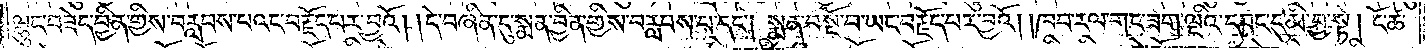ལྷུང་བཟེད་བྱིན་གྱིས་བརླབས་པའང་བརྗོད་པར་བྱའོ། །དེ་བཞིན་དུ་སྨན་བྱིན་གྱིས་བརླབས་པ་དང༌། སྨན་བསྔོ་བ་ཡང་བརྗོད་པར་བྱའོ། །ཁབ་རལ་གང་ཟག་ལྔའི་དབང་དུ་མི་བྱ་སྟེ། ངོ་ཚ་
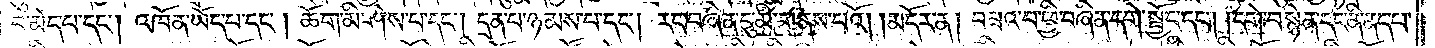བ་མེད་པ་དང༌། འཁོན་ཡོད་པ་དང༌། ཆོག་མི་ཤེས་པ་དང༌། དྲན་པ་ཉམས་པ་དང༌། རང་བཞིན་དུ་མི་གནས་པའོ། །མདོར་ན། བཟའ་བ་ཕྱི་བཞིན་དགེ་སྦྱོང་དང༌། །དགེ་བསྙེན་དང་ནི་ནད་པ་
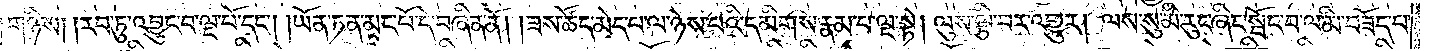གཉིས། །རབ་ཏུ་འབྱུང་བ་ལྔ་པོ་དང༌། །ཡོན་ཏན་མང་པོ་དེ་བཞིན་ནོ། །ཟས་ཚོད་མེད་པ་ལ་ཉེས་པའི་དམིགས་རྣམ་པ་ལྔ་སྟེ། ལུས་ལྕི་བར་འགྱུར། ལས་སུ་མི་རུང་ཞིང་སྤོང་བ་ལ་མི་བཟོད་པ་
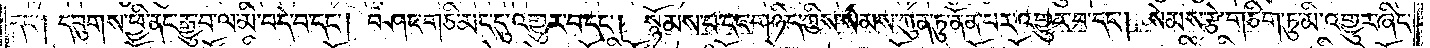དང༌། དབུགས་ཕྱི་ནང་རྒྱུ་བ་ལ་མི་བདེ་བ་དང༌། བཤང་གཅི་མང་དུ་འགྱུར་བ་དང༌། སྙོམས་པ་དང་གཉིད་ཀྱིས་སེམས་ཀུན་ཏུ་ནོན་པར་འགྱུར་བ་དང༌། སེམས་རྩེ་གཅིག་ཏུ་མི་འགྱུར་ཞིང་
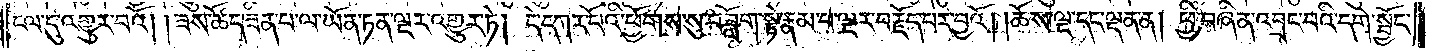ངལ་དུ་འགྱུར་བའོ། །ཟས་ཚོད་ཟིན་པ་ལ་ཡོན་ཏན་ལྔར་འགྱུར་ཏེ། དེ་དཀར་པོའི་ཕྱོགས་སུ་བཟློག་སྟེ་རྣམ་པ་ལྔར་བརྗོད་པར་བྱའོ། །ཆོས་ལྔ་དང་ལྡན་ན། ཕྱི་བཞིན་འབྲང་བའི་དགེ་སྦྱོང་
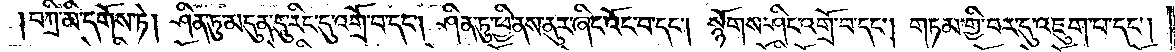བཀྲི་མི་དགོས་ཏེ། ཤིན་ཏུ་མདུན་དུ་རིང་དུ་འགྲོ་བ་དང༌། ཤིན་ཏུ་ཕྱི་ནས་ནུར་ཞིང་འོང་བ་དང༌། སྙོགས་ཤིང་འགྲོ་བ་དང༌། གཏམ་གྱི་བར་དུ་འཇུག་པ་དང༌།
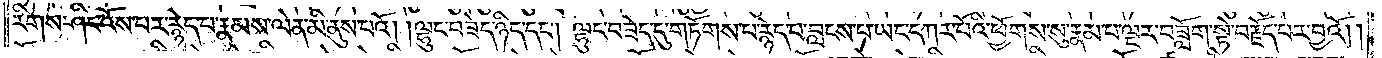རིགས་ཤིང་འོས་པར་རྙེད་པ་རྣམས་ལེན་མི་ནུས་པའོ། །ལྷུང་བཟེད་ཉིད་དང༌། ལྷུང་བཟེད་དུ་གཏོགས་པ་རྙེད་པ་བླངས་པ་ཡང་དཀར་པོའི་ཕྱོགས་སུ་རྣམ་པ་ལྔར་བཟློག་སྟེ་བརྗོད་པར་བྱའོ། །
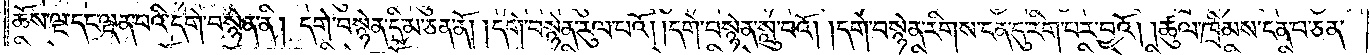ཆོས་ལྔ་དང་ལྡན་པའི་དགེ་བསྙེན་ནི། དགེ་བསྙེན་དྲི་མ་ཅན་ནོ། །དགེ་བསྙེན་རུལ་པའོ། །དགེ་བསྙེན་སླུ་བའོ། །དགེ་བསྙེན་རིགས་ངན་དུ་རིག་པར་བྱའོ། །ཚུལ་ཁྲིམས་ངན་པ་ཅན་
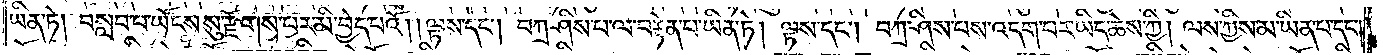ཡིན་ཏེ། བསླབ་པ་ཡོངས་སུ་རྫོགས་པར་མི་བྱེད་པའོ། །ལྟས་དང༌། བཀྲ་ཤིས་པ་ལ་བརྟེན་པ་ཡིན་ཏེ། ལྟས་དང༌། བཀྲ་ཤིས་པས་འདག་པར་ཡིད་ཆེས་ཀྱི། ལས་ཀྱིས་མ་ཡིན་པ་དང༌།
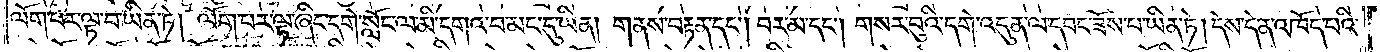ལོག་པར་ལྟ་བ་ཡིན་ཏེ། ལོག་པར་ལྟ་ཞིང་དགེ་སློང་ལ་མི་དགའ་བ་མང་དུ་ཡིན། གནས་བརྟན་དང༌། བར་མ་དང༌། གསར་བུའི་དགེ་འདུན་ལ་དབང་ཟོས་པ་ཡིན་ཏེ། དེས་དེ་ན་འཁོད་པའི་
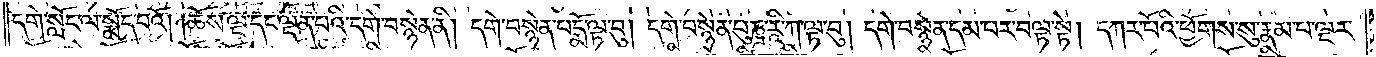དགེ་སློང་ལ་སྨོད་པའོ། །ཆོས་ལྔ་དང་ལྡན་པའི་དགེ་བསྙེན་ནི། དགེ་བསྙེན་པདྨོ་ལྟ་བུ། དགེ་བསྙེན་པུཎྜ་རཱི་ཀ་ལྟ་བུ། དགེ་བསྙེན་དམ་པར་བལྟ་སྟེ། དཀར་པོའི་ཕྱོགས་སུ་རྣམ་པ་ལྔར་
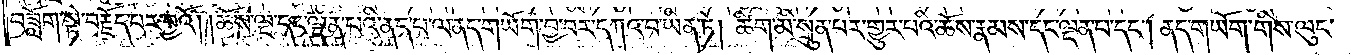བཟློག་སྟེ་བརྗོད་པར་བྱའོ། །ཆོས་ལྔ་དང་ལྡན་པའི་ནད་པ་ལ་ནད་གཡོག་བྱ་བར་དཀའ་བ་ཡིན་ཏེ། ཚིག་མི་སྲུན་པར་གྱུར་པའི་ཆོས་རྣམས་དང་ལྡན་པ་དང༌། ནད་གཡོག་གིས་ལུང་
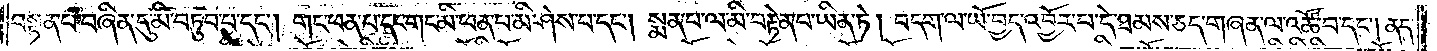བསྟན་པ་བཞིན་དུ་མི་བཏུབ་པ་དང༌། གང་ཕན་པ་དང་གང་མི་ཕན་པ་མི་ཤེས་པ་དང༌། སྨན་པ་ལ་མི་བརྟེན་པ་ཡིན་ཏེ། བདག་ལ་ཡོ་བྱད་འབྱོར་པ་དེ་ཐམས་ཅད་གཞན་ལ་འཚོ་བ་དང༌། ནད་
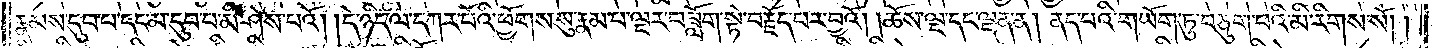རྣམས་དུབ་པ་དང་མ་དུབ་པ་མི་ཤེས་པའོ། །དེ་ཉིད་ལ་དཀར་པོའི་ཕྱོགས་སུ་རྣམ་པ་ལྔར་བཟློག་སྟེ་བརྗོད་པར་བྱའོ། །ཆོས་ལྔ་དང་ལྡན་ན། ནད་པའི་གཡོག་ཏུ་བཅུག་པའི་མི་རིགས་སོ། །
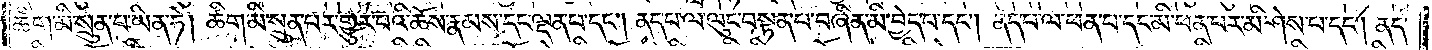ཚིག་མི་སྲུན་པ་ཡིན་ཏེ། ཚིག་མི་སྲུན་པར་གྱུར་པའི་ཆོས་རྣམས་དང་ལྡན་པ་དང༌། ནད་པ་ལ་ལུང་བསྟན་པ་བཞིན་མི་བྱེད་པ་དང༌། ནད་པ་ལ་ཕན་པ་དང་མི་ཕན་པར་མི་ཤེས་པ་དང༌། ནད་
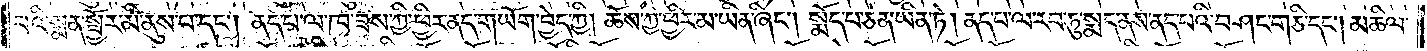པའི་སྨན་སྦྱོར་མི་ནུས་པ་དང༌། ནད་པ་ལ་ཁ་ཟས་ཀྱི་ཕྱིར་ནད་གཡོག་བྱེད་ཀྱི། ཆོས་ཀྱི་ཕྱིར་མ་ཡིན་ཞིང༌། སྨོད་པ་ཅན་ཡིན་ཏེ། ནད་པ་ལ་རབ་ཏུ་སྨད་ནས་ནད་པའི་བཤང་གཅི་དང༌། མཆིལ་
